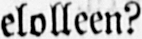elolleen?
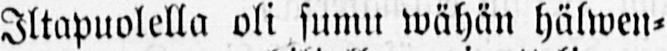Iltapuolella oli sumu wähän hälwen-
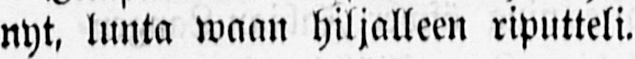nyt, lunta waan hiljalleen riputteli.
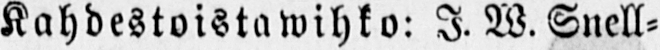Kahdestoistawihko: J.W. Snell-
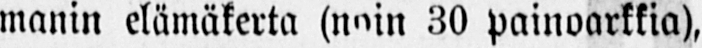manin elämäkerta (noin 30 painoarkkia),
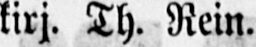kirj. Th. Rein.
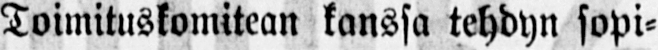Toimituskomitean kanssa tehdyn sopi-
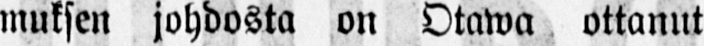muksen johdosta on Otawa ottanut
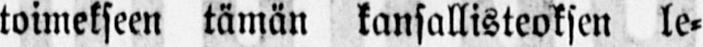toimekseen tämän kansallisteoksen le-
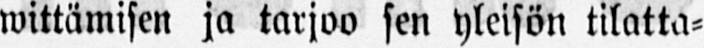wittämisen ja tarjoa sen yleisön tilatta-
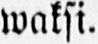waksi.
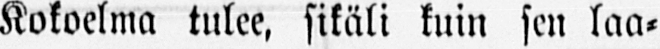Kokoelma tulee, sikäli kuin sen laa-
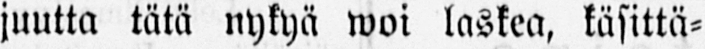juutta tätä nykyä woi laskea, käsittä-
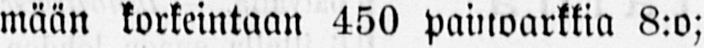mään korkeintaan 450 painoarkkia 8:o;
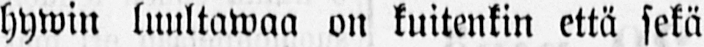hywin luultawaa on kuitenkin että sekä
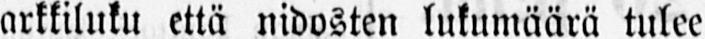arkkiinko että nidosten lukumäärä tulee
